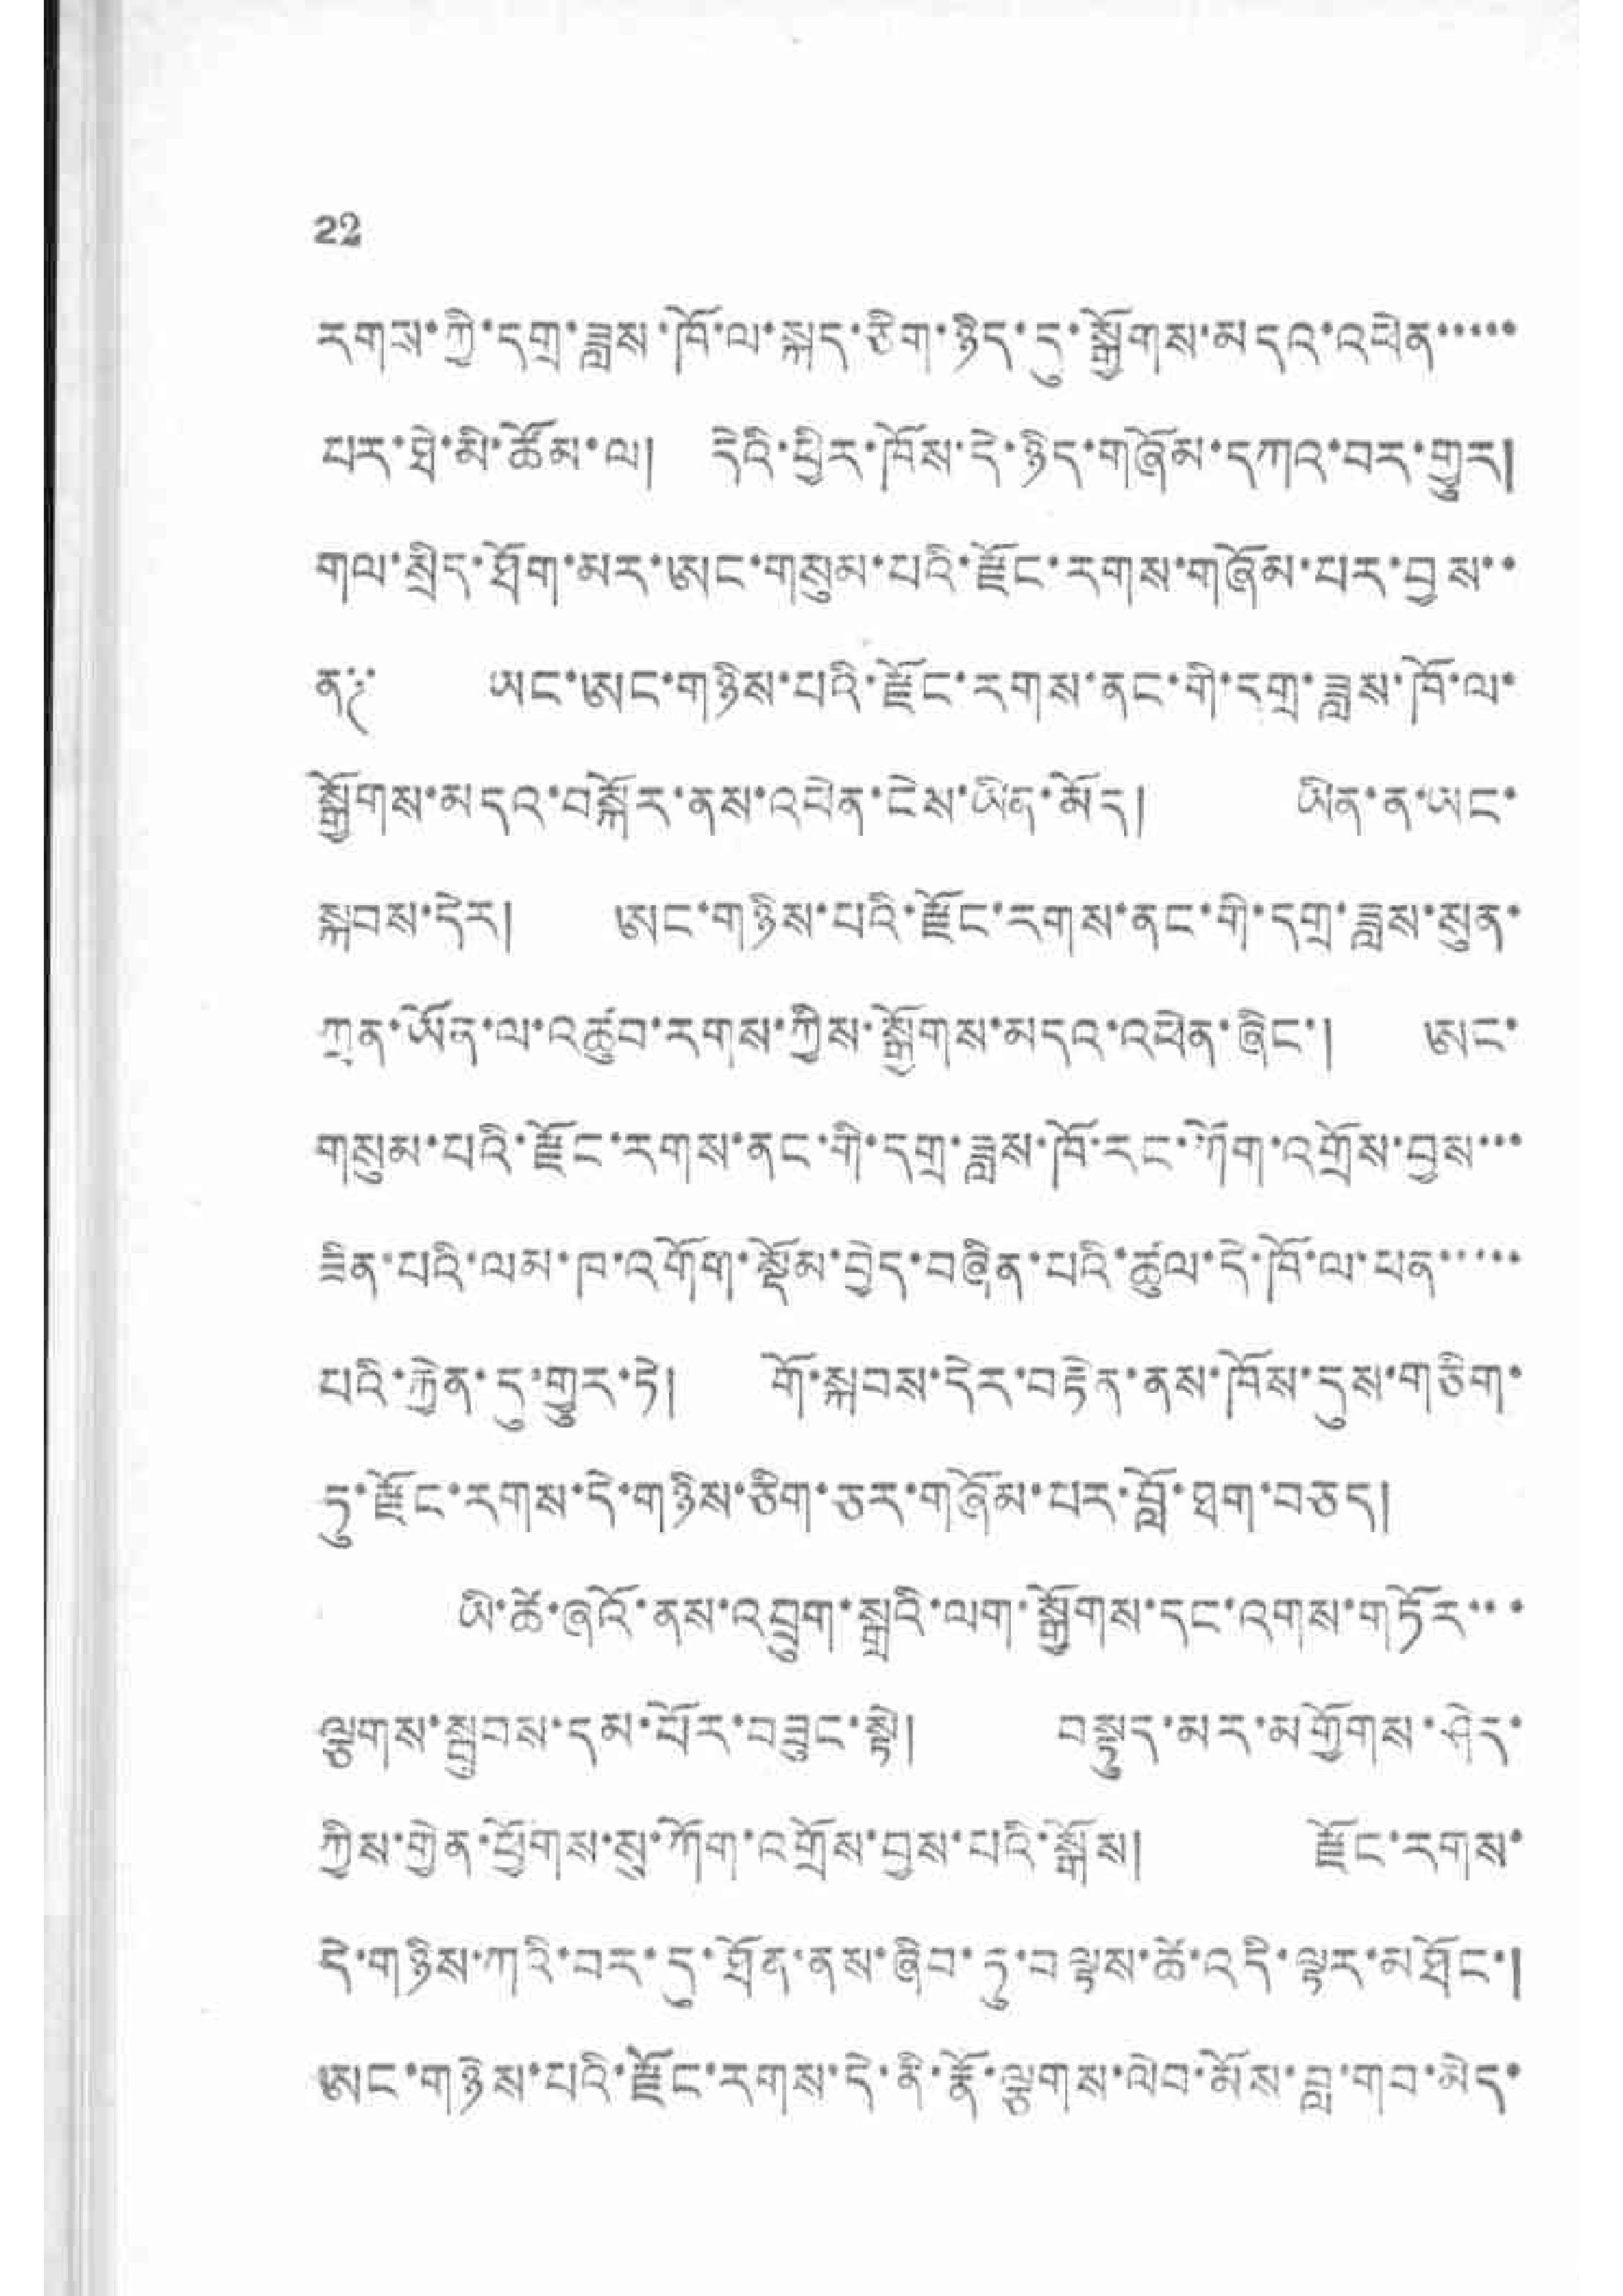22
རགས་ཀྱི་དགུ་ཟླས་ཁོ་ལ་སྐད་ཅིག་ཉིད་དུ་སྒྱོགས་མདའ་འཕེན་་་་་
པར་ཐེ་མི་ཚོམ་ལ། དེའི་ཕྱིར་ཁོས་དེ་ཉིད་གཞོམ་དཀའ་བར་གྱུར།
གལ་སྲིད་ཐོག་མར་ཨང་གསུམ་པའི་རྫོང་རགས་གཞོམ་པར་བྱས་་
ན༐ ཡང་ཨང་གཉིས་པའི་རྫོང་རགས་ནང་གི་དགྲ་ཟླས་ཁོ་ལ་
སྒྱོགས་མདའ་བསྐོར་ནས་འཕེན་ངེས་ཡིན་མོད། ཡིན་ན་ཡང་
སྐབས་དེར། ཨང་གཉིས་པའི་རྫོང་རགས་ནང་གི་དགྲ་ཟླས་སུན་
ཀྲན་ཡོན་ལ་འཚུབ་རགས་ཀྱིས་སྒྱོགས་མདའ་འཕེན་ཞིང་། ཨང་
གསུམ་པའི་རྫོང་རགས་ནང་གི་དགྲ་ཟླས་ཁོ་རང་ཀོག་འགྲོས་བྱས་་་
ཟིན་པའི་ལམ་ཁ་འགོག་སྡོམ་བྱེད་བཞིན་པའི་ཚུལ་དེ་ཁོ་ལ་ཕན་་་་་
པའི་རྐྱེན་དུ་གྱུར་ཏེ། གོ་སྐབས་དེར་བརྟེད་ནས་ཁོས་དུས་གཅིག་
ཏུ་རྫོང་དགས་དེ་གཉིས་ཅིག་ཅར་གཞོམ་པར་བློ་ཐག་བཅད།
ཡི་ཚེ་ཞའོ་ནས་འབྲུག་སྒྲའི་ལག་སྒྱོགས་དང་འགས་གཏོར་་་
ལྕགས་སྦུབས་དམ་པོར་བཟུང་སྟེ། བསྟུད་མར་མགྱོགས་ཤེད་
ཀྱིས་གྱེན་ཕྱོགས་སུ་ཀོག་འགྲོས་བྱས་པའི་སྐོས། རྫོང་རགས་
དེ་གཉིས་ཀའི་བར་དུ་ཐོན་ནས་ཞིབ་ཏུ་བལྟས་ཚེ་འདི་ལྟར་མཐོང་།
ཨང་གཉིས་པའི་རྫོང་རགས་དེ་ནི་རྣོ་ལྕགས་ལེབ་མོས་བླ་གབ་མེད་
